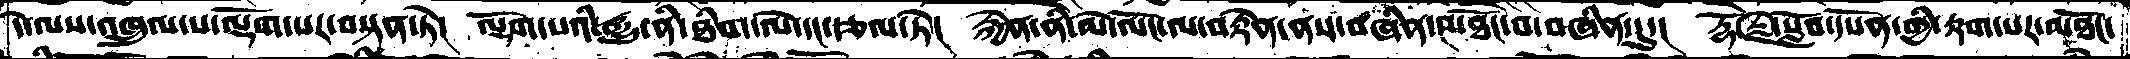དེ་ལས་འཁྲུལ་པ་ལྡོག་པར་བསྟན་ཏེ།  ལྡོག་པའི་རྒྱུ་ནི་ཐིག་ལེ་དང་རྩལ་ཏེ།  རྐྱེན་ནི་མེ་ལོང་ལ་བརྟེན་ནས་བཞིན་མཐོང་བ་བཞིན་དུ་།  རྡོ་རྗེ་སློབ་དཔོན་གྱི་རྟག་པར་མཐོང་
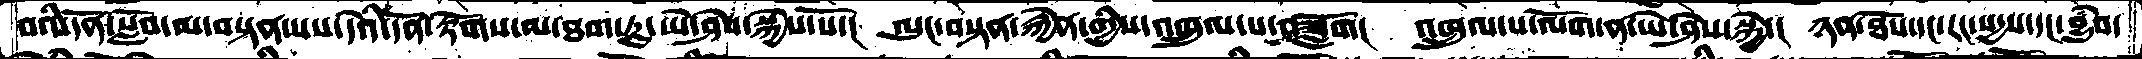བའི་དོན་སློབ་མ་བསྟན་པས་དེའི་དོན་རྟོགས་མ་ཐག་ཏུ་ཡེ་ཤེས་སྐྱེས་སོ་།  ལུང་བསྟན་རྐྱེན་གྱིས་འཁྲུལ་པ་བཟློག།  འཁྲུལ་པ་ལོག་ན་ཡེ་ཤེས་སྐྱེ་།  ཉན་ཐོས་དང་རང་སདྱས་དང་བྱུཾབ་
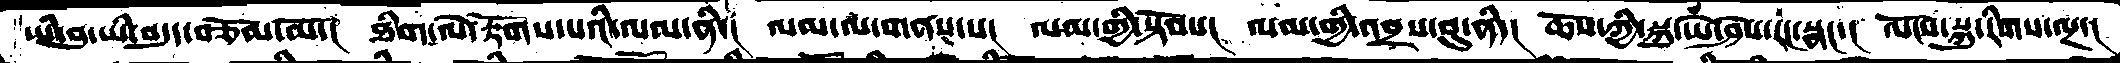ཡི་བུ་ཡི་བདུད་བཅོམ་མོ་།  ཐིག་ལེ་རྟོགས་པའི་ལམ་ནི་།  ལམ་ལ་གནས་པ།  ལམ་གྱི་སྟོབས།  ལམ་གྱི་འབྲས་བུ་ནི་།  ཆོས་ཀྱི་སྐུ་ཡེ་ཤེས་རང་སྣང་།  ལོངས་སྐུ་རིགས་ལྔ་།
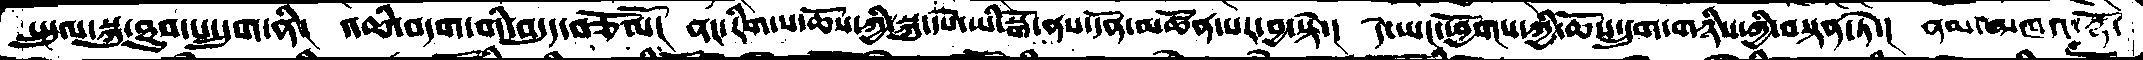སྤྲུལ་སྐུ་ཐུབ་པ་དྲུག་ནི།  འཆི་བདག་གི་བདུད་བཅོམོ།  ནང་རིག་པ་ཆོས་ཀྱི་སྐུ་དཔེ་ཡི་སྒོ་ནས་དོན་མཚོན་པར་བྱ་སྟེ་།  དེ་ཡང་ཕྱོགས་ཀྱི་ཆོས་དྲུག་གཉིས་ཀྱི་བསྟན་ཏེ་།  ནམ་མཁའ་རྡོེ་
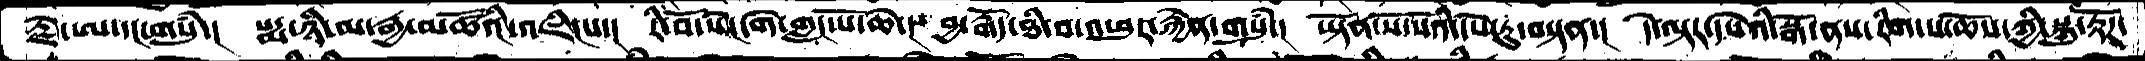རྗེ་ཨ་དང་གསུཾ་།  པདྨ་ཉི་མ་རྒྱ་མཚོའི་འཇིངས་།  རི་བོ་སེང་གེ་གླང་པོ་ཆེ་།  བྱ་རྒོད་ཐི་བ་འཕུར་རྐྱེན་གསུཾ་།  ཡྟོན་སོ་སོའི་དཔེ་རུ་བསྟན་།  དེ་ལྟར་དཔེའི་སྒོ་ནས་རིག་པ་ཆོས་ཀྱི་སྐུ་རྟོཌ་
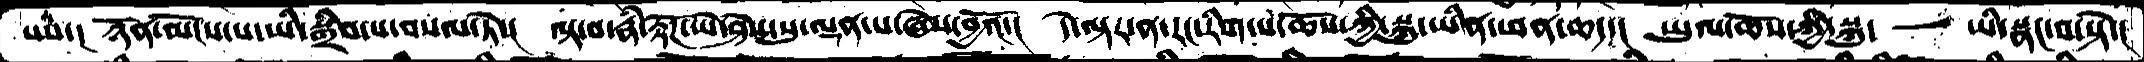པས་།  ཉོན་མོངས་པ་ཡི་སྒྲིབ་པ་བསལ་ཏེ་།  ལྟ་བ་རྣཾ་རྟོཌ་ཡེ་ཤེས་སུ་ལྡན་པ་ཞེས་བྱའོ་།  དེ་ལྟར་ན་རང་རིག་པ་ཆོས་ཀྱི་སྐུ་ཡིན་ཕན་ཆད་།  ཡུལ་ཆོས་ཀྱི་སྐུ་    ཡི་སྣང་པ་སྟེ་།
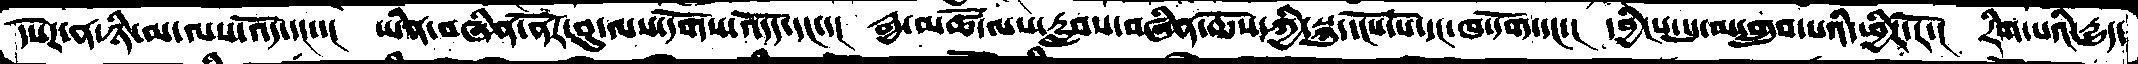དཔེར་ན་ཉི་མ་ལས་འོད་དང་་།  ཡིན་བཞིན་ནོར་བུ་ལས་དགོས་འདོད་དང་་།  རྒྱ་མཚོ་ལས་རླབས་བཞིན་ཆོས་ཀྱི་སྐུ་དངོས་པོ་དང་ཁ་དོག་དང་།  དབྱངིས་སུ་མ་གྲུབ་པའི་ཕྱིར་རོ་།  རིག་པའི་དྱུད་
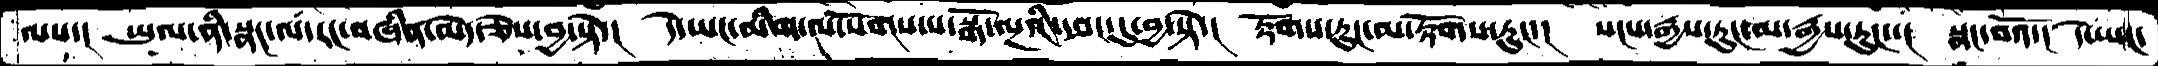ལས་།  ཡུལ་ནི་སྣང་ལ་རང་བཞིན་མེད་ཅེས་བྱ་སྟེ་།  དེ་ཡང་མིག་ལ་སོགས་པ་སྒོ་ལྔའི་དབང་དུ་བྱ་སྟེ་།  རྟོགས་རུང་མ་རྟོགས་རུང་།  སངས་རྒྱས་རུང་མ་རྒྱས་རུང་་།  སྣང་བའོ་་།  དེ་ཡང་
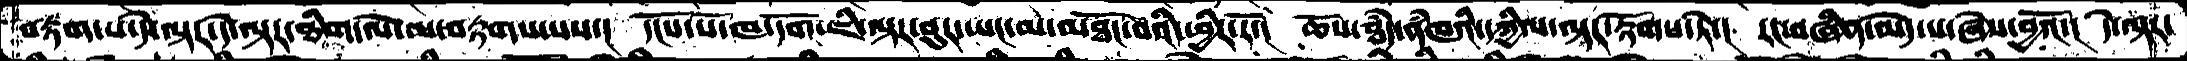བརྟག་པ་དེ་ལྟར་དེ་ལྟར་ཐིག་ལེ་མ་བརྟགས་པས་།  དངོས་པོ་ཁ་དོག་ཇི་ལྟར་བུར་ཡང་མ་མཐོང་བའི་ཕྱིར་རོ་།  ཆོས་ཐཾད་ནཾཁའི་དཀྱིལ་ལྟར་རྟོགས་ཏེ་།  རང་བཞིན་མེད་པ་ཞེས་བྱའོ་།  དེ་ལྟར་
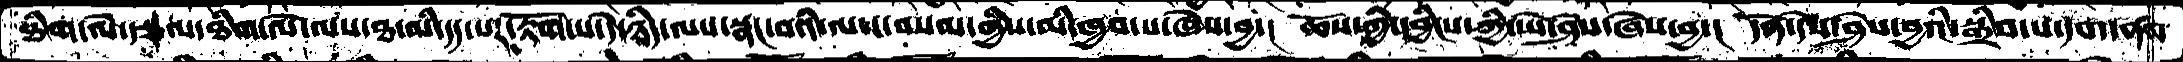ཐིག་ལེ་རྩལ་ཐིག་ལེ་ལས་ཐ་མི་དད་པར་རྟོག་པ་དེ་ཉིད་ལས་སྣང་བའི་ལས་བསམ་གྱིས་མི་ཁྱབ་པ་ཞེས་བྱ་། ཆོས་ཀྱི་དབྱིངས་ཀྱི་ཡེ་ཤེས་ཞེས་བྱ་། དོན་དེས་ཤེས་བྱའི་སྒྲིབ་པ་དག་ནས
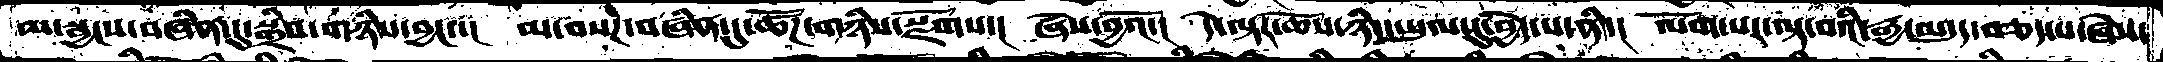མ་སྦྱངས་བཞིན་དུ་སྒྲིབ་གཉིས་བྱང་་།  མ་བསཌ་བཞིན་དུ་ཚོཌ་གཉིས་སྫོགས་།  ཞེས་བྱའོ་།  དེ་ལྟར་ཆོས་ཉིད་ཡུལ་དུ་བྱེད་པ་ནི་།  ལོག་པར་ལྟ་བའི་རྒྱ་མདུད་བཅད་པ་ཞེས་
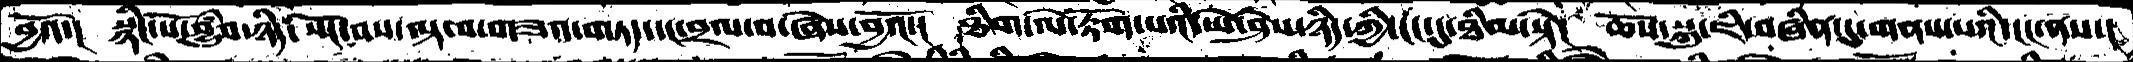བྱའོ་།  སྙིང་པོ་བྱུཾབ་ཉིད་སོང་བས་ལྟ་བ་གཟའ་གཏད་དང་བྲལ་བ་ཞེས་བྱའོ་།  ཐིག་ལེ་རྟོག་པའི་ཡེ་ཤེས་ཉིད་ཀྱི་ངང་དུ་ཐིམ་སྟེ།  ཆོས་སྐུ་ཇི་བཞིན་དུ་གནས་པའི་ངང་ནས་།
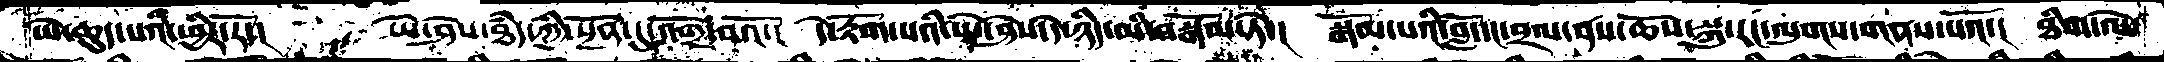ཡེ་ཆུད་པའི་ཕྱིར་རོ་།  ཡེ་ཤེས་ཐཾད་ཀྱི་སྔོན་དུ་འགྲོ་བའོ་།  དེ་རྟོག་པའི་ཡེ་ཤེས་དེ་ཉིད་མི་བསྒོམ་ཏེ་།  སྒོམ་པའི་བློ་དང་བྲལ་ནས་ཆོས་སྐུ་རང་ལུགས་གནས་པའོ་།  ཐིག་ལེ་
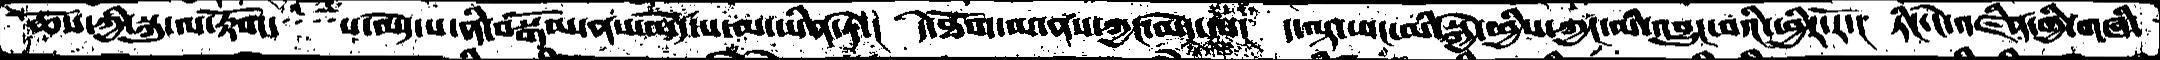ཆོས་ཀྱི་སྐུ་ལ་རྟོག་    པ་མེད་པ་ནི་བསྒོམ་ནས་འདོད་པ་མ་ཡིན་ཏེ་།  དེ་ཐོག་མ་ནས་ཀྱང་མེད་ལ།  ད་ལྟ་ཡང་མི་སྐྱེ་ཕྱིས་ཀྱང་མི་འབྱུང་བའི་ཕྱིར་རོ་།  ཏིང་ངེ་འཛིན་གྱི་གཞི་
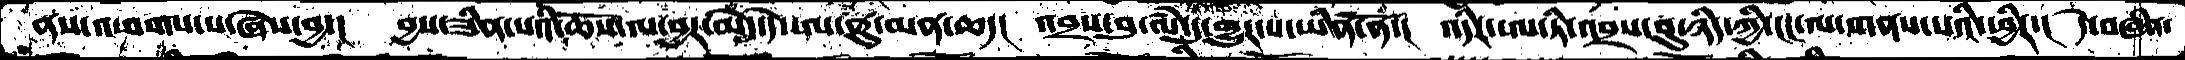ནས་འཕགས་པ་ཞེས་བྱ་།  བྱས་ཟིན་པའི་ཆོས་ལ་བྱར་མེད་དེ་ཨ་ནུ་མན་ཆད།  འབྲས་བུ་ལཾ་དུ་གྱུར་པ་ཡིན་ནོ་།  འདིར་ཨ་ཏི་འབྲས་བུ་ཉིད་ཀྱི་ངང་ལ་གནས་པའི་ཕྱིར་།  དེ་བཞིན་
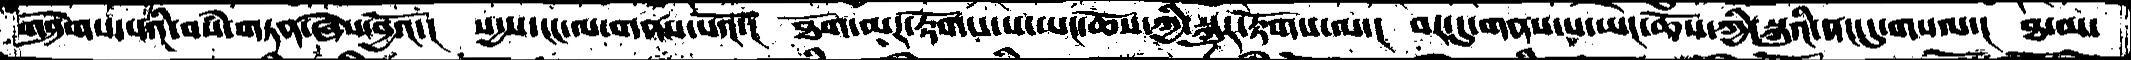གཤེགས་པའི་བསཾ་གཏན་ཞེས་བྱའོ་།  སདྱས་ངང་ལ་གནས་པའོ་།  ཐོག་མར་རྟོགས་པ་ཡང་ཆོས་ཀྱི་སྐུར་རྟོགས་ལ་།  བར་དུ་གནས་པ་ཡང་ཆོས་ཀྱི་སྐུའི་ནང་དུ་གསལ་།  ཐ་མ་
